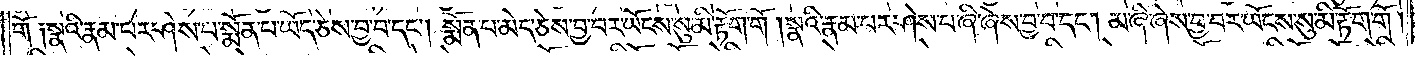གོ ༑སྣའི་རྣམ་པར་ཤེས་པ་སྨོན་པ་ཡོད་ཅེས་བྱ་བ་དང༌། སྨོན་པ་མེད་ཅེས་བྱ་བར་ཡོངས་སུ་མི་རྟོག་གོ །སྣའི་རྣམ་པར་ཤེས་པ་ཞི་ཞེས་བྱ་བ་དང༌། མ་ཞི་ཞེས་བྱ་བར་ཡོངས་སུ་མི་རྟོག་གོ །
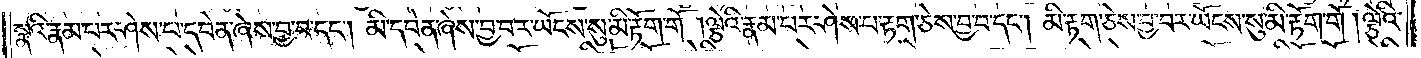སྣའི་རྣམ་པར་ཤེས་པ་དབེན་ཞེས་བྱ་བ་དང༌། མི་དབེན་ཞེས་བྱ་བར་ཡོངས་སུ་མི་རྟོག་གོ །ལྕེའི་རྣམ་པར་ཤེས་པ་རྟག་ཅེས་བྱ་བ་དང༌། མི་རྟག་ཅེས་བྱ་བར་ཡོངས་སུ་མི་རྟོག་གོ །ལྕེའི་
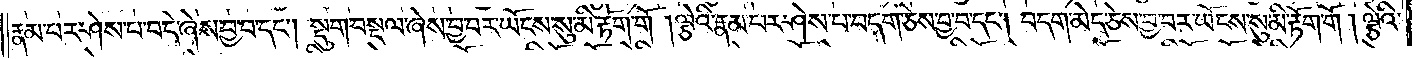རྣམ་པར་ཤེས་པ་བདེ་ཞེས་བྱ་བ་དང༌། སྡུག་བསྔལ་ཞེས་བྱ་བར་ཡོངས་སུ་མི་རྟོག་གོ །ལྕེའི་རྣམ་པར་ཤེས་པ་བདག་ཅེས་བྱ་བ་དང༌། བདག་མེད་ཅེས་བྱ་བར་ཡོངས་སུ་མི་རྟོག་གོ །ལྕེའི་
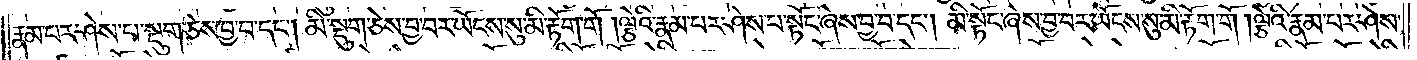རྣམ་པར་ཤེས་པ་སྡུག་ཅེས་བྱ་བ་དང༌། མི་སྡུག་ཅེས་བྱ་བར་ཡོངས་སུ་མི་རྟོག་གོ །ལྕེའི་རྣམ་པར་ཤེས་པ་སྟོང་ཞེས་བྱ་བ་དང༌། མི་སྟོང་ཞེས་བྱ་བར་ཡོངས་སུ་མི་རྟོག་གོ །ལྕེའི་རྣམ་པར་ཤེས་
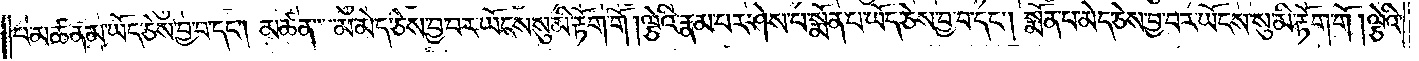པ་མཚན་མ་ཡོད་ཅེས་བྱ་བ་དང༌། མཚན་མ་མེད་ཅེས་བྱ་བར་ཡོངས་སུ་མི་རྟོག་གོ །ལྕེའི་རྣམ་པར་ཤེས་པ་སྨོན་པ་ཡོད་ཅེས་བྱ་བ་དང༌། སྨོན་པ་མེད་ཅེས་བྱ་བར་ཡོངས་སུ་མི་རྟོག་གོ །ལྕེའི་
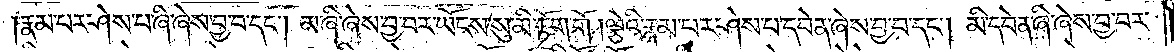རྣམ་པར་ཤེས་པ་ཞི་ཞེས་བྱ་བ་དང༌། མ་ཞི་ཞེས་བྱ་བར་ཡོངས་སུ་མི་རྟོག་གོ །ལྕེའི་རྣམ་པར་ཤེས་པ་དབེན་ཞེས་བྱ་བ་དང༌། མི་དབེན་ཞེས་བྱ་བར་
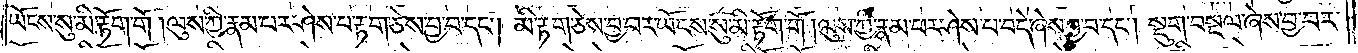ཡོངས་སུ་མི་རྟོག་གོ །ལུས་ཀྱི་རྣམ་པར་ཤེས་པ་རྟག་ཅེས་བྱ་བ་དང༌། མི་རྟག་ཅེས་བྱ་བར་ཡོངས་སུ་མི་རྟོག་གོ །ལུས་ཀྱི་རྣམ་པར་ཤེས་པ་བདེ་ཞེས་བྱ་བ་དང༌། སྡུག་བསྔལ་ཞེས་བྱ་བར་
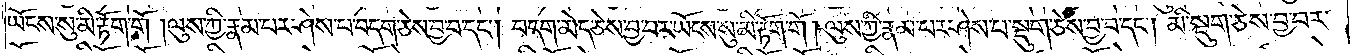ཡོངས་སུ་མི་རྟོག་གོ །ལུས་ཀྱི་རྣམ་པར་ཤེས་པ་བདག་ཅེས་བྱ་བ་དང༌། བདག་མེད་ཅེས་བྱ་བར་ཡོངས་སུ་མི་རྟོག་གོ །ལུས་ཀྱི་རྣམ་པར་ཤེས་པ་སྡུག་ཅེས་བྱ་བ་དང༌། མི་སྡུག་ཅེས་བྱ་བར་
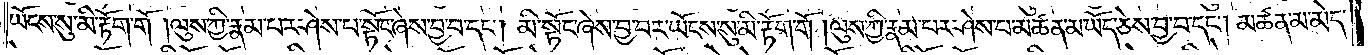ཡོངས་སུ་མི་རྟོག་གོ །ལུས་ཀྱི་རྣམ་པར་ཤེས་པ་སྟོང་ཞེས་བྱ་བ་དང༌། མི་སྟོང་ཞེས་བྱ་བར་ཡོངས་སུ་མི་རྟོག་གོ །ལུས་ཀྱི་རྣམ་པར་ཤེས་པ་མཚན་མ་ཡོད་ཅེས་བྱ་བ་དང༌། མཚན་མ་མེད་
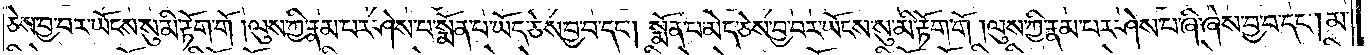ཅེས་བྱ་བར་ཡོངས་སུ་མི་རྟོག་གོ །ལུས་ཀྱི་རྣམ་པར་ཤེས་པ་སྨོན་པ་ཡོད་ཅེས་བྱ་བ་དང༌། སྨོན་པ་མེད་ཅེས་བྱ་བར་ཡོངས་སུ་མི་རྟོག་གོ །ལུས་ཀྱི་རྣམ་པར་ཤེས་པ་ཞི་ཞེས་བྱ་བ་དང༌། མ་
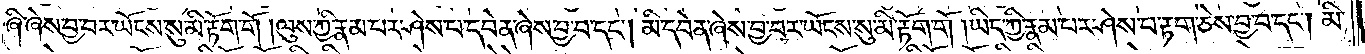ཞི་ཞེས་བྱ་བར་ཡོངས་སུ་མི་རྟོག་གོ །ལུས་ཀྱི་རྣམ་པར་ཤེས་པ་དབེན་ཞེས་བྱ་བ་དང༌། མི་དབེན་ཞེས་བྱ་བར་ཡོངས་སུ་མི་རྟོག་གོ །ཡིད་ཀྱི་རྣམ་པར་ཤེས་པ་རྟག་ཅེས་བྱ་བ་དང༌། མི་
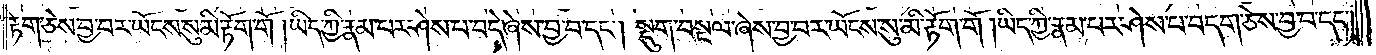རྟག་ཅེས་བྱ་བར་ཡོངས་སུ་མི་རྟོག་གོ །ཡིད་ཀྱི་རྣམ་པར་ཤེས་པ་བདེ་ཞེས་བྱ་བ་དང༌། སྡུག་བསྔལ་ཞེས་བྱ་བར་ཡོངས་སུ་མི་རྟོག་གོ །ཡིད་ཀྱི་རྣམ་པར་ཤེས་པ་བདག་ཅེས་བྱ་བ་དང༌།
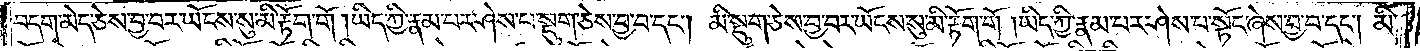བདག་མེད་ཅེས་བྱ་བར་ཡོངས་སུ་མི་རྟོག་གོ །ཡིད་ཀྱི་རྣམ་པར་ཤེས་པ་སྡུག་ཅེས་བྱ་བ་དང༌། མི་སྡུག་ཅེས་བྱ་བར་ཡོངས་སུ་མི་རྟོག་གོ །ཡིད་ཀྱི་རྣམ་པར་ཤེས་པ་སྟོང་ཞེས་བྱ་བ་དང༌། མི་
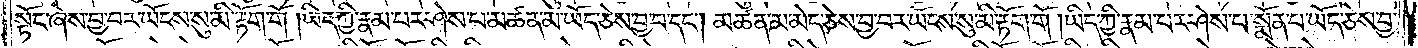སྟོང་ཞེས་བྱ་བར་ཡོངས་སུ་མི་རྟོག་གོ །ཡིད་ཀྱི་རྣམ་པར་ཤེས་པ་མཚན་མ་ཡོད་ཅེས་བྱ་བ་དང༌། མཚན་མ་མེད་ཅེས་བྱ་བར་ཡོངས་སུ་མི་རྟོག་གོ །ཡིད་ཀྱི་རྣམ་པར་ཤེས་པ་སྨོན་པ་ཡོད་ཅེས་བྱ་
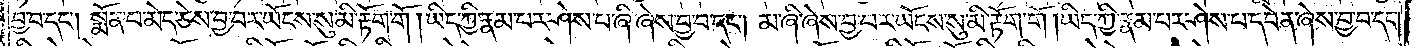བ་དང༌། སྨོན་པ་མེད་ཅེས་བྱ་བར་ཡོངས་སུ་མི་རྟོག་གོ །ཡིད་ཀྱི་རྣམ་པར་ཤེས་པ་ཞི་ཞེས་བྱ་བ་དང༌། མ་ཞི་ཞེས་བྱ་བར་ཡོངས་སུ་མི་རྟོག་གོ །ཡིད་ཀྱི་རྣམ་པར་ཤེས་པ་དབེན་ཞེས་བྱ་བ་དང༌།
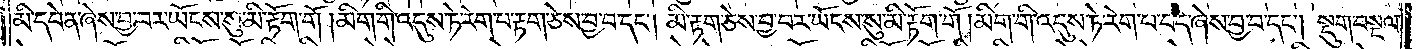མི་དབེན་ཞེས་བྱ་བར་ཡོངས་སུ་མི་རྟོག་གོ །མིག་གི་འདུས་ཏེ་རེག་པ་རྟག་ཅེས་བྱ་བ་དང༌། མི་རྟག་ཅེས་བྱ་བར་ཡོངས་སུ་མི་རྟོག་གོ །མིག་གི་འདུས་ཏེ་རེག་པ་བདེ་ཞེས་བྱ་བ་དང༌། སྡུག་བསྔལ་
